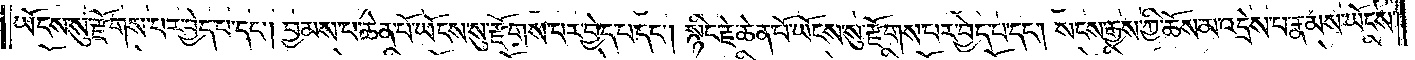ཡོངས་སུ་རྫོགས་པར་བྱེད་པ་དང༌། བྱམས་པ་ཆེན་པོ་ཡོངས་སུ་རྫོགས་པར་བྱེད་པ་དང༌། སྙིང་རྗེ་ཆེན་པོ་ཡོངས་སུ་རྫོགས་པར་བྱེད་པ་དང༌། སངས་རྒྱས་ཀྱི་ཆོས་མ་འདྲེས་པ་རྣམས་ཡོངས་
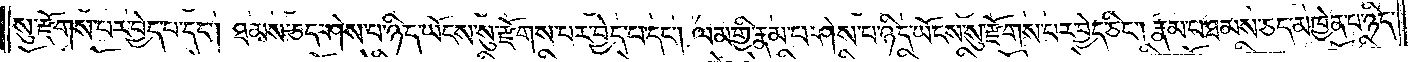སུ་རྫོགས་པར་བྱེད་པ་དང༌། ཐམས་ཅད་ཤེས་པ་ཉིད་ཡོངས་སུ་རྫོགས་པར་བྱེད་པ་དང༌། ལམ་གྱི་རྣམ་པ་ཤེས་པ་ཉིད་ཡོངས་སུ་རྫོགས་པར་བྱེད་ཅིང༌། །རྣམ་པ་ཐམས་ཅད་མཁྱེན་པ་ཉིད་
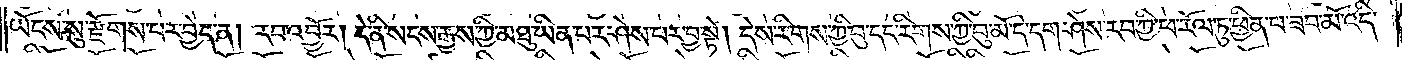ཡོངས་སུ་རྫོགས་པར་བྱེད་ན། རབ་འབྱོར། དེ་ནི་སངས་རྒྱས་ཀྱི་མཐུ་ཡིན་པར་ཤེས་པར་བྱ་སྟེ། དེས་རིགས་ཀྱི་བུ་དང་རིགས་ཀྱི་བུ་མོ་དེ་དག་ཤེས་རབ་ཀྱི་ཕ་རོལ་ཏུ་ཕྱིན་པ་ཟབ་མོ་འདི་
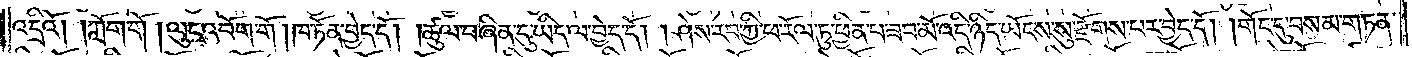འདྲིའོ། །ཀློག་གོ། །ལུང་འབོག་གོ། ཁ་ཏོན་བྱེད་དོ། །ཚུལ་བཞིན་དུ་ཡིད་ལ་བྱེད་དོ། །ཤེས་རབ་ཀྱི་ཕ་རོལ་ཏུ་ཕྱིན་པ་ཟབ་མོ་འདི་ཉིད་ཡོངས་སུ་རྫོགས་པར་བྱེད་དོ། །གོང་དུ་བསམ་གཏན་
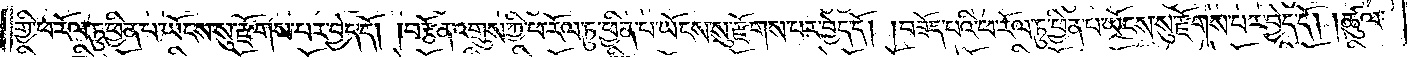གྱི་ཕ་རོལ་ཏུ་ཕྱིན་པ་ཡོངས་སུ་རྫོགས་པར་བྱེད་དོ། །བརྩོན་འགྲུས་ཀྱི་ཕ་རོལ་ཏུ་ཕྱིན་པ་ཡོངས་སུ་རྫོགས་པར་བྱེད་དོ། །བཟོད་པའི་ཕ་རོལ་ཏུ་ཕྱིན་པ་ཡོངས་སུ་རྫོགས་པར་བྱེད་དོ། །ཚུལ་
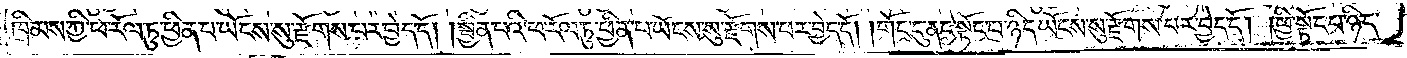ཁྲིམས་ཀྱི་ཕ་རོལ་ཏུ་ཕྱིན་པ་ཡོངས་སུ་རྫོགས་པར་བྱེད་དོ། །སྦྱིན་པའི་ཕ་རོལ་ཏུ་ཕྱིན་པ་ཡོངས་སུ་རྫོགས་པར་བྱེད་དོ། །གོང་དུ་ནང་སྟོང་པ་ཉིད་ཡོངས་སུ་རྫོགས་པར་བྱེད་དོ། །ཕྱི་སྟོང་པ་ཉིད་
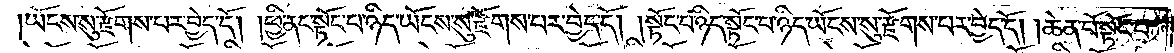ཡོངས་སུ་རྫོགས་པར་བྱེད་དོ། །ཕྱི་ནང་སྟོང་པ་ཉིད་ཡོངས་སུ་རྫོགས་པར་བྱེད་དོ། །སྟོང་པ་ཉིད་སྟོང་པ་ཉིད་ཡོངས་སུ་རྫོགས་པར་བྱེད་དོ། །ཆེན་པོ་སྟོང་པ་
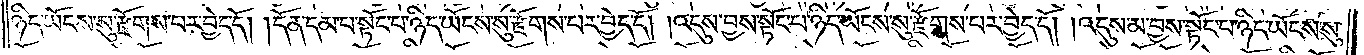ཉིད་ཡོངས་སུ་རྫོགས་པར་བྱེད་དོ། །དོན་དམ་པ་སྟོང་པ་ཉིད་ཡོངས་སུ་རྫོགས་པར་བྱེད་དོ། །འདུས་བྱས་སྟོང་པ་ཉིད་ཡོངས་སུ་རྫོགས་པར་བྱེད་དོ། །འདུས་མ་བྱས་སྟོང་པ་ཉིད་ཡོངས་སུ་
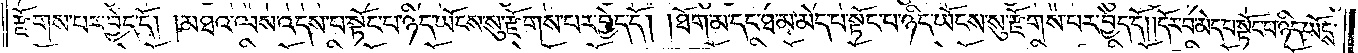རྫོགས་པར་བྱེད་དོ། །མཐའ་ལས་འདས་པ་སྟོང་པ་ཉིད་ཡོངས་སུ་རྫོགས་པར་བྱེད་དོ། །ཐོག་མ་དང་ཐ་མ་མེད་པ་སྟོང་པ་ཉིད་ཡོངས་སུ་རྫོགས་པར་བྱེད་དོ། །དོར་བ་མེད་པ་སྟོང་པ་ཉིད་ཡོངས་
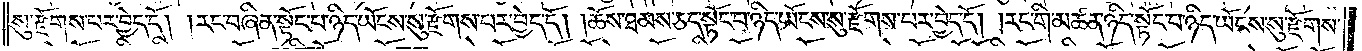སུ་རྫོགས་པར་བྱེད་དོ། །རང་བཞིན་སྟོང་པ་ཉིད་ཡོངས་སུ་རྫོགས་པར་བྱེད་དོ། །ཆོས་ཐམས་ཅད་སྟོང་པ་ཉིད་ཡོངས་སུ་རྫོགས་པར་བྱེད་དོ། །རང་གི་མཚན་ཉིད་སྟོང་པ་ཉིད་ཡོངས་སུ་རྫོགས་
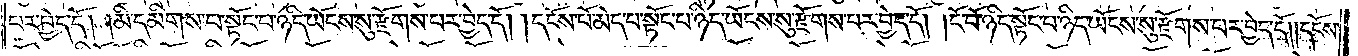པར་བྱེད་དོ། །མི་དམིགས་པ་སྟོང་པ་ཉིད་ཡོངས་སུ་རྫོགས་པར་བྱེད་དོ། །དངོས་པོ་མེད་པ་སྟོང་པ་ཉིད་ཡོངས་སུ་རྫོགས་པར་བྱེད་དོ། །ངོ་བོ་ཉིད་སྟོང་པ་ཉིད་ཡོངས་སུ་རྫོགས་པར་བྱེད་དོ། །དངོས་
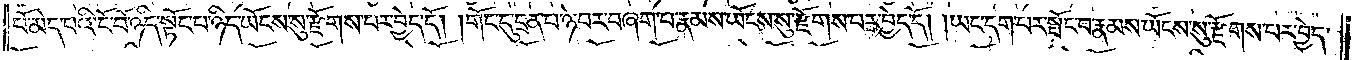པོ་མེད་པའི་ངོ་བོ་ཉིད་སྟོང་པ་ཉིད་ཡོངས་སུ་རྫོགས་པར་བྱེད་དོ། །གོང་དུ་དྲན་པ་ཉེ་བར་བཞག་པ་རྣམས་ཡོངས་སུ་རྫོགས་པར་བྱེད་དོ། །ཡང་དག་པར་སྤོང་བ་རྣམས་ཡོངས་སུ་རྫོགས་པར་བྱེད་
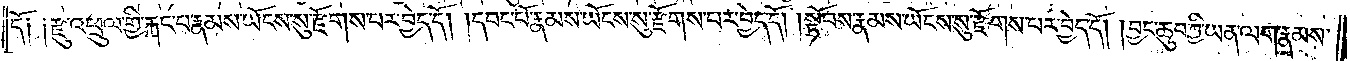དོ༑ ༑རྫུ་འཕྲུལ་གྱི་རྐང་པ་རྣམས་ཡོངས་སུ་རྫོགས་པར་བྱེད་དོ། །དབང་པོ་རྣམས་ཡོངས་སུ་རྫོགས་པར་བྱེད་དོ། །སྟོབས་རྣམས་ཡོངས་སུ་རྫོགས་པར་བྱེད་དོ། །བྱང་ཆུབ་ཀྱི་ཡན་ལག་རྣམས་
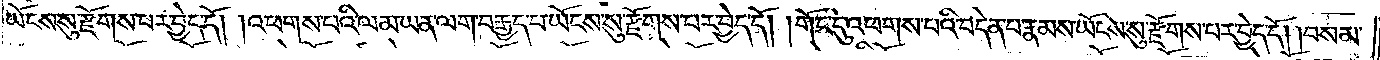ཡོངས་སུ་རྫོགས་པར་བྱེད་དོ། །འཕགས་པའི་ལམ་ཡན་ལག་བརྒྱད་པ་ཡོངས་སུ་རྫོགས་པར་བྱེད་དོ། །གོང་དུ་འཕགས་པའི་བདེན་པ་རྣམས་ཡོངས་སུ་རྫོགས་པར་བྱེད་དོ། །བསམ་
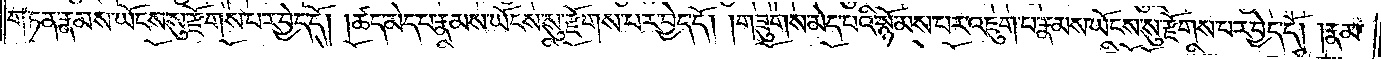གཏན་རྣམས་ཡོངས་སུ་རྫོགས་པར་བྱེད་དོ། །ཚད་མེད་པ་རྣམས་ཡོངས་སུ་རྫོགས་པར་བྱེད་དོ། །གཟུགས་མེད་པའི་སྙོམས་པར་འཇུག་པ་རྣམས་ཡོངས་སུ་རྫོགས་པར་བྱེད་དོ། །རྣམ་
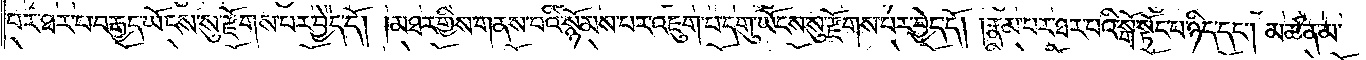པར་ཐར་པ་བརྒྱད་ཡོངས་སུ་རྫོགས་པར་བྱེད་དོ། །མཐར་གྱིས་གནས་པའི་སྙོམས་པར་འཇུག་པ་དགུ་ཡོངས་སུ་རྫོགས་པར་བྱེད་དོ། །རྣམ་པར་ཐར་པའི་སྒོ་སྟོང་པ་ཉིད་དང༌། མཚན་མ་
